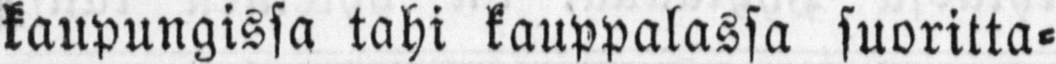kaupungissa tahi kauppalassa suoritta-
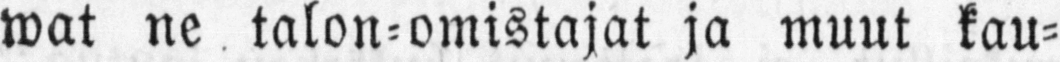wat ne talon-omistajat ja muut kau-
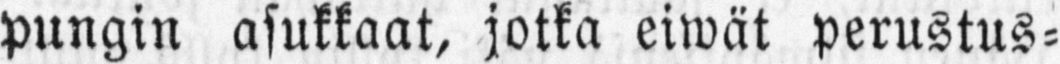pungin asukkaat, jotka eiwät perustus-
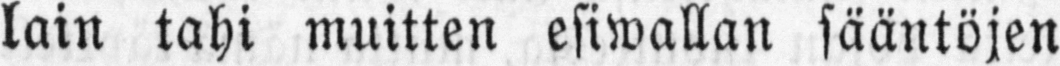lain tahi muitten esiwallan sääntöjen
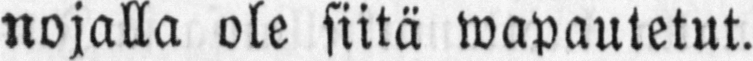nojalla ole siitä wapautetut.
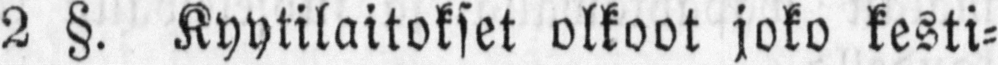2 §. Kyytilaitokset olkoot joko kesti-
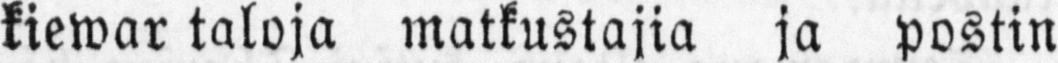kiewar taloja matkustajia ja postin
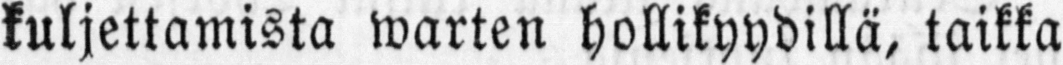kuljettamista warten hollikyydillä, taikka
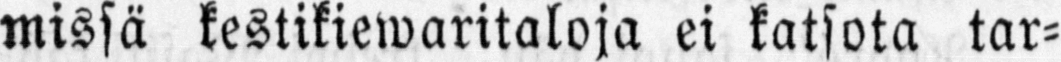missä kestikiewaritaloja ei katsota tar-
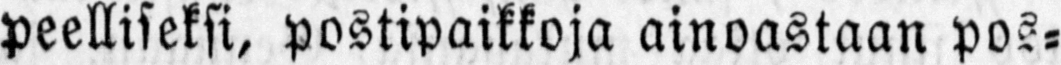peelliseksi, postipaikkoja ainoastaan pos-
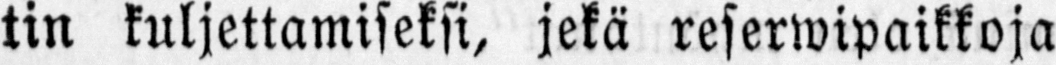tin kuljettamiseksi, jekä reserwipaikkoja
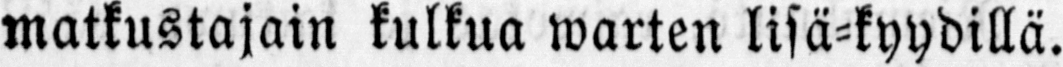matkustajain kulkua warten lisä-kyydillä.
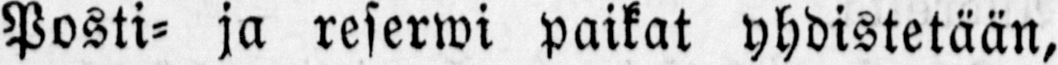Posti- ja reserwi paikat yhdistetään,
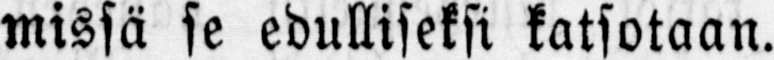missä se edulliseksi katsotaan.
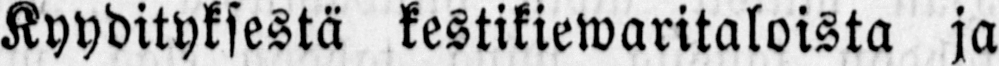Kyydityksestä kestikiewaritaloista ja
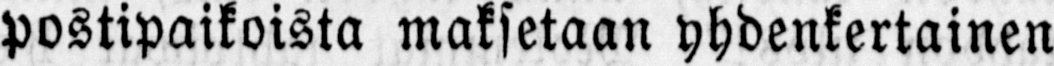postipaikoista maksetaan yhdenkertainen
